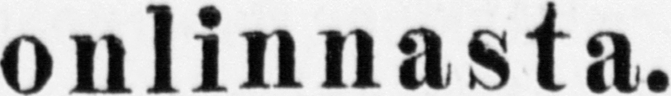Savonlinnasta.
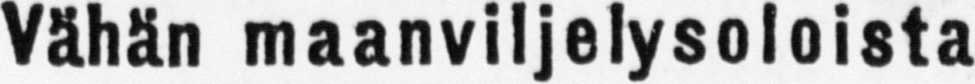V ä hän maanviljelysoloista
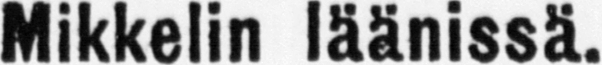Mikkelin läänissä.
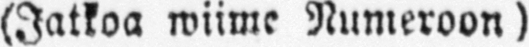(Jatkoa wiime Numeroon)
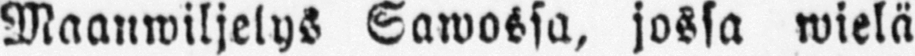Maanwiljelys Sawossa, jossa wielä
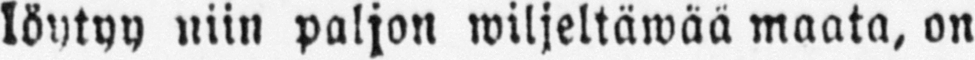löytyy niin paljon wiljeltäwää maata, on
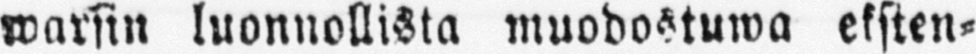warsin luonnollista muodostuwa eksten-
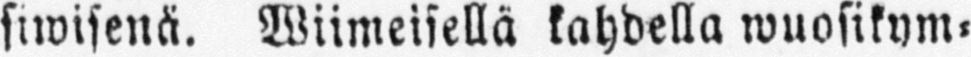siwisenä. Wiimeisellä kahdella wuosikym-
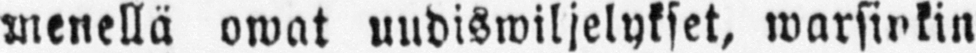menellä owat uudiswiljelykset, warsinkin
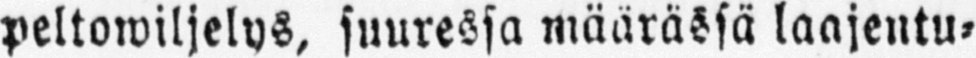peltowiljelys, suuressa määrässä laajentu-
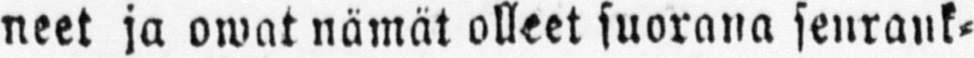neet ja owat nämät olleet suorana seurauk-
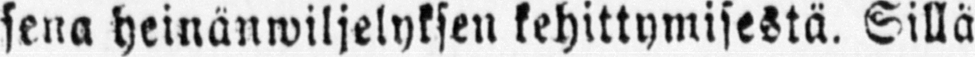setta heinänwiljelyksen kehittymisestä. Sillä
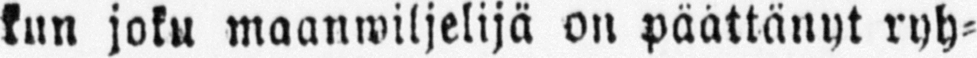kun joku maanwiljelijä on päättänyt ryh-
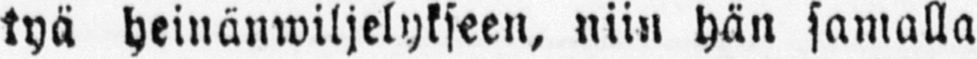tyä heinänwiljelykseen, niin hän samalla
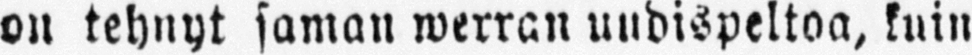on tehnyt saman werran uudispeltoa, kuin
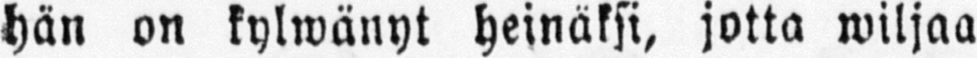hän on kylwänyt heinäksi, jotta wiljaa
